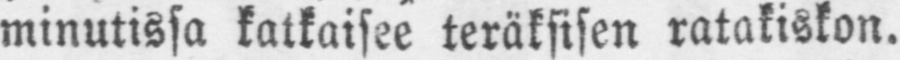minutissa katkaisee teräksisen ratakiskon.
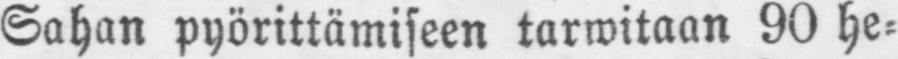Sahan pyörittämiseen tarwitaan 90 he-
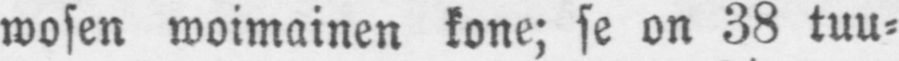wosen woimainen kone; se on 38 tuu-
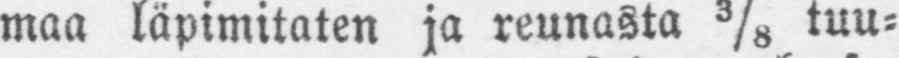maa läpimitaten ja reunasta tuu-
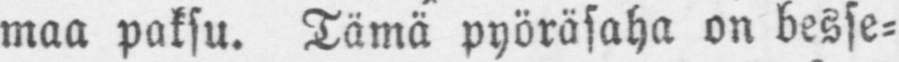maa paksu. Tämä pyöräsaha on besse-
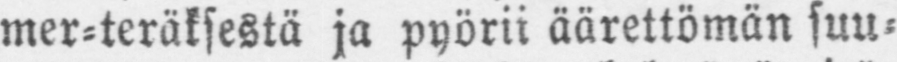mer-teräksestä ja pyörii äärettömän suu-
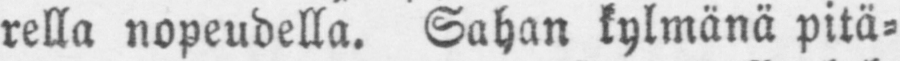rella nopeudella. Sahan kylmänä pitä-
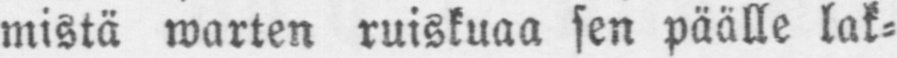mistä warten ruiskuaa sen päälle lak-
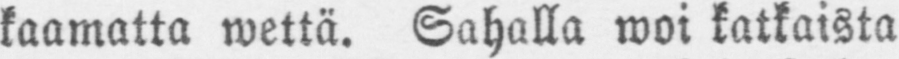kaamatta wettä. Sahalla woi katkaista
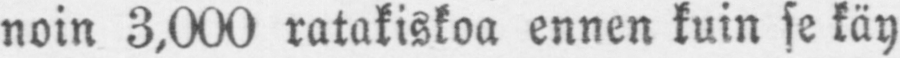noin 3,000 ratakiskoa ennen kuin se käy
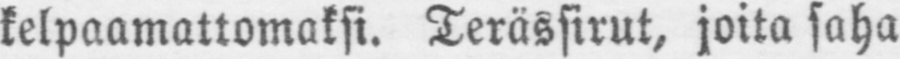kelpaamattomaksi. Terässirut, joita saha
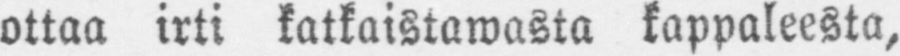ottaa irti katkaistawasta kappaleesta,
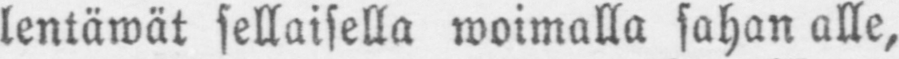lentäwät sellaisella woimalla sahan alle,
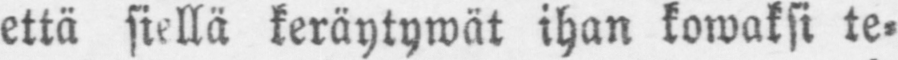että siellä keräytywät ihan kowaksi te-
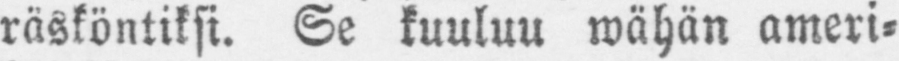räsköntiksi. Se kuuluu wähän ameri-
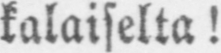kalaiselta!
